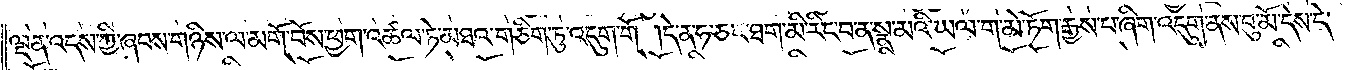ལྡན་འདས་ཀྱི་ཞབས་གཉིས་ལ་མགོ་བོས་ཕྱག་འཚལ་ཏེ་མཐའ་གཅིག་ཏུ་འདུག་གོ །དེ་ན་ཧ་ཅང་ཐག་མི་རིང་བ་ན་སྣ་མའི་ཡལ་ག་མེ་ཏོག་རྒྱས་པ་ཞིག་འདུག་ནས་བུ་མོ་དེས་དེ་
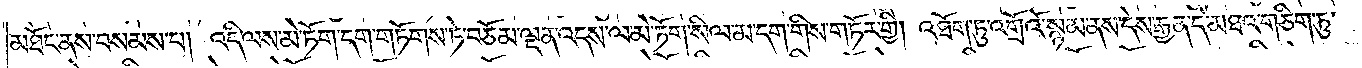མཐོང་ནས་བསམས་པ། འདི་ལས་མེ་ཏོག་དག་གཏོགས་ཏེ་བཅོམ་ལྡན་འདས་ལ་མེ་ཏོག་སིལ་མ་དག་གིས་གཏོར་གྱི། འཐོག་ཏུ་འགྲོའོ་སྙམ་ནས་དེས་རྒྱན་དེ་མཐའ་གཅིག་ཏུ་
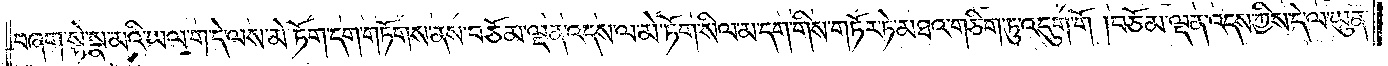བཞག་སྟེ་སྣ་མའི་ཡལ་ག་དེ་ལས་མེ་ཏོག་དག་གཏོགས་ནས་བཅོམ་ལྡན་འདས་ལ་མེ་ཏོག་སིལ་མ་དག་གིས་གཏོར་ཏེ་མཐའ་གཅིག་ཏུ་འདུག་གོ །བཅོམ་ལྡན་འདས་ཀྱིས་དེ་ལ་ཡུན་
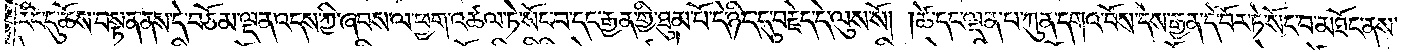རིང་དུ་ཆོས་བསྟན་ནས་དེ་བཅོམ་ལྡན་འདས་ཀྱི་ཞབས་ལ་ཕྱག་འཚལ་ཏེ་སོང་བ་དང་རྒྱན་གྱི་ཐུམ་པོ་དེ་ཉིད་དུ་བརྗེད་དེ་ལུས་སོ། །ཚེ་དང་ལྡན་པ་ཀུན་དགའ་བོས་དེས་རྒྱན་དེ་བོར་ཏེ་སོང་བ་མཐོང་ནས་
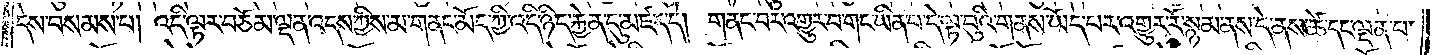དེས་བསམས་པ། འདི་ལྟར་བཅོམ་ལྡན་འདས་ཀྱིས་མ་གནང་མོད་ཀྱི་འདི་ཉིད་རྐྱེན་དུ་མཛད་དེ། གནང་བར་འགྱུར་བ་གང་ཡིན་པ་དེ་ལྟ་བུའི་གནས་ཡོད་པར་འགྱུར་རོ་སྙམ་ནས་དེ་ནས་ཚེ་དང་ལྡན་པ་
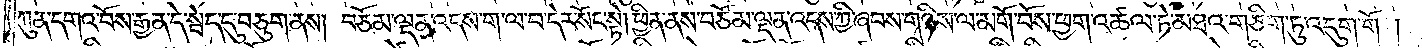ཀུན་དགའ་བོས་རྒྱན་དེ་སྦེད་དུ་བཅུག་ནས། བཅོམ་ལྡན་འདས་ག་ལ་བ་དེར་སོང་སྟེ། ཕྱིན་ནས་བཅོམ་ལྡན་འདས་ཀྱི་ཞབས་གཉིས་ལ་མགོ་བོས་ཕྱག་འཚལ་ཏེ་མཐའ་གཅིག་ཏུ་འདུག་གོ །
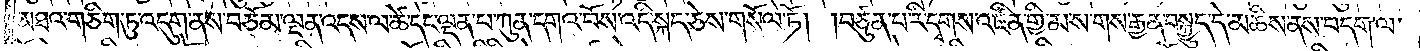མཐའ་གཅིག་ཏུ་འདུག་ནས་བཅོམ་ལྡན་འདས་ལ་ཚེ་དང་ལྡན་པ་ཀུན་དགའ་བོས་འདི་སྐད་ཅེས་གསོལ་ཏོ། །བཙུན་པ་རི་དྭགས་འཛིན་གྱི་མ་ས་གས་རྒྱན་བསྐྱུད་དེ་མཆིས་ནས་བདག་ལ་
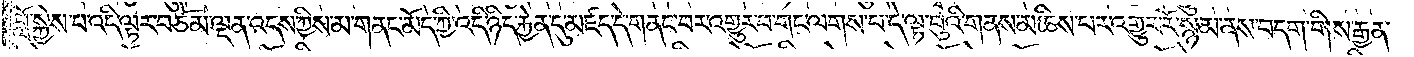བློ་སྐྱེས་པ་འདི་ལྟར་བཅོམ་ལྡན་འདས་ཀྱིས་མ་གནང་མོད་ཀྱི་འདི་ཉིད་རྐྱེན་དུ་མཛད་དེ་གནང་བར་འགྱུར་བ་གང་ལགས་པ་དེ་ལྟ་བུའི་གནས་མཆིས་པར་འགྱུར་རོ་སྙམ་ནས་བདག་གིས་རྒྱན་
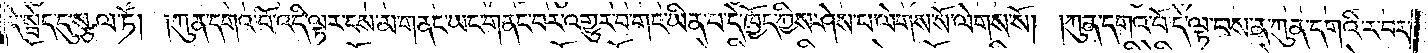དེ་སྦེད་དུ་སྩལ་ཏོ། །ཀུན་དགའ་བོ་འདི་ལྟར་ངས་མ་གནང་ཡང་གནང་བར་འགྱུར་བ་གང་ཡིན་པ་དེ་ཁྱོད་ཀྱིས་ཤེས་པ་ལེགས་སོ་ལེགས་སོ། །ཀུན་དགའ་བོ་དེ་ལྟ་བས་ན་ཀུན་དགའི་ར་བར་
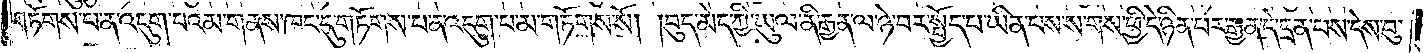གཏོགས་པ་ན་འདུག་པའམ་གནས་ཁང་དུ་གཏོགས་པ་ན་འདུག་པ་མ་གཏོགས་སོ། །བུད་མེད་ཀྱི་ཡུལ་ནི་རྒྱན་ལ་ཉེ་བར་སྤྱོད་པ་ཡིན་པས་ས་གས་ཕྱི་དེ་ཉིན་པར་རྒྱན་དེ་དྲན་པས་དེས་བུ་
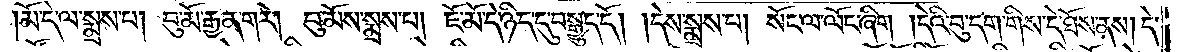མོ་དེ་ལ་སྨྲས་པ། བུ་མོ་རྒྱན་ག་རེ། བུ་མོས་སྨྲས་པ། ཇོ་མོ་དེ་ཉིད་དུ་བསྒྱུད་དོ། །དེས་སྨྲས་པ། སོང་ལ་ལོང་ཞིག །དེའི་བུ་དག་གིས་དེ་ཐོས་ནས། དེ་
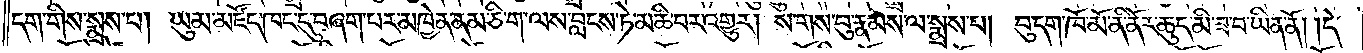དག་གིས་སྨྲས་པ། ཡུམ་མཛོད་ཁང་དུ་བཞག་པར་མཁྱེན་ནམ་ཅི་ག་ལས་བླངས་ཏེ་མཆི་བར་འགྱུར། ས་གས་བུ་རྣམས་ལ་སྨྲས་པ། བུ་དག་ཁོ་མོ་ནི་ནོར་ཆུད་མི་ཟ་བ་ཡིན་ནོ། །དེ་
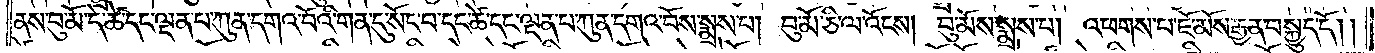ནས་བུ་མོ་དེ་ཚེ་དང་ལྡན་པ་ཀུན་དགའ་བོའི་གན་དུ་སོང་བ་དང་ཚེ་དང་ལྡན་པ་ཀུན་དགའ་བོས་སྨྲས་པ། བུ་མོ་ཅི་ལ་འོངས། བུ་མོས་སྨྲས་པ། འཕགས་པ་ཇོ་མོས་རྒྱན་བསྐྱུད་དོ། །
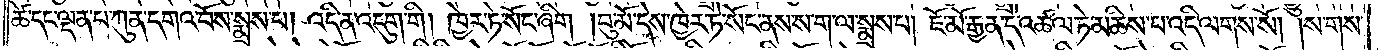ཚེ་དང་ལྡན་པ་ཀུན་དགའ་བོས་སྨྲས་པ། འདི་ན་འདུག་གི། ཁྱེར་ཏེ་སོང་ཞིག །བུ་མོ་དེས་ཁྱེར་ཏེ་སོང་ནས་ས་ག་ལ་སྨྲས་པ། ཇོ་མོ་རྒྱན་དེ་འཚལ་ཏེ་མཆིས་པ་འདི་ལགས་སོ། །ས་གས་
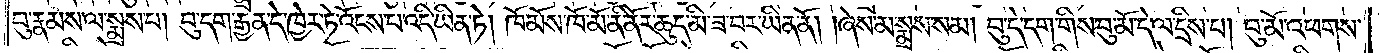བུ་རྣམས་ལ་སྨྲས་པ། བུ་དག་རྒྱན་དེ་ཁྱེར་ཏེ་འོངས་པ་འདི་ཡིན་ཏེ། ཁོ་མོས་ཁོ་མོ་ནི་ནོར་ཆུད་མི་ཟ་བར་ཡིན་ནོ། །ཞེས་མ་སྨྲས་སམ། བུ་དེ་དག་གིས་བུ་མོ་དེ་ལ་དྲིས་པ། བུ་མོ་འཕགས་
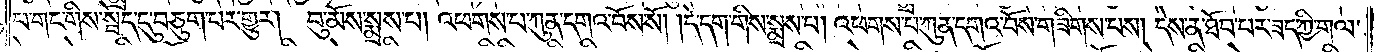པ་གང་གིས་སྦེད་དུ་བཅུག་པར་གྱུར། བུ་མོས་སྨྲས་པ། འཕགས་པ་ཀུན་དགའ་བོས་སོ། །དེ་དག་གིས་སྨྲས་པ། འཕགས་པ་ཀུན་དགའ་བོས་གཟིགས་པས། དེས་ན་ཐོབ་པར་ཟད་ཀྱི་གལ་
